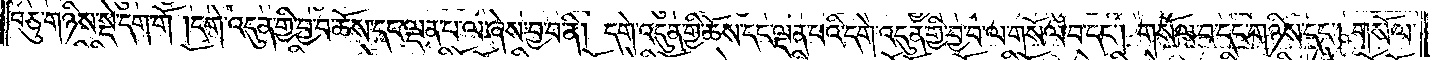བཅུ་གཉིས་སྡེ་དག་གོ །དགེ་འདུན་གྱི་བྱ་བ་ཆོས་དང་ལྡན་པ་ལ་ཞེས་བྱ་བ་ནི། དགེ་འདུན་གྱི་ཆོས་དང་ལྡན་པའི་དགེ་འདུན་གྱི་བྱ་བ་ལ་གསོལ་བ་དང༌། གསོལ་བ་དང་གཉིས་དང༌། གསོལ་
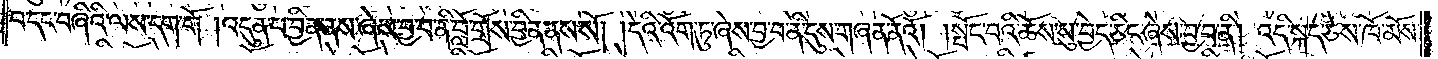བ་དང་བཞིའི་ལས་དག་གོ །འདུན་པ་བྱིན་ནས་ཞེས་བྱ་བ་ནི་བློ་གྲོས་བྱིན་ནས་སོ། །དེའི་འོག་ཏུ་ཞེས་བྱ་བ་ནི་དུས་གཞན་ནོའོ། །སྤོང་བའི་ཆོས་སུ་བྱེད་ཅིང་ཞེས་བྱ་བ་ནི། འདི་སྐད་ཅེས་ཁོ་མོས་
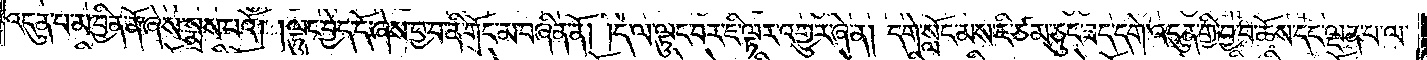འདུན་པ་མ་བྱིན་ནོ་ཞེས་སྨྲས་པའོ། །ལྟུང་བྱེད་དོ་ཞེས་བྱ་བ་ནི་གོང་མ་བཞིན་ནོ། །དེ་ལ་ལྟུང་བར་ཇི་ལྟར་འགྱུར་ཞེ་ན། དགེ་སློང་མས་ཇི་ཙམ་ཅུང་ཟད་དགེ་འདུན་གྱི་བྱ་བ་ཆོས་དང་ལྡན་པ་ལ་
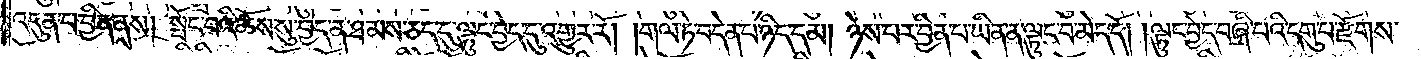འདུན་པ་བྱིན་ནས། སྤོང་བའི་ཆོས་སུ་བྱེད་ན་ཐམས་ཅད་དུ་ལྟུང་བྱེད་དུ་འགྱུར་རོ། །གལ་ཏེ་བདེན་པ་ཉིད་དམ། ཉེས་པར་བྱིན་པ་ཡིན་ན་ལྟུང་བ་མེད་དོ། །ལྟུང་བྱེད་བཞི་པའི་དགུ་པ་རྫོགས་
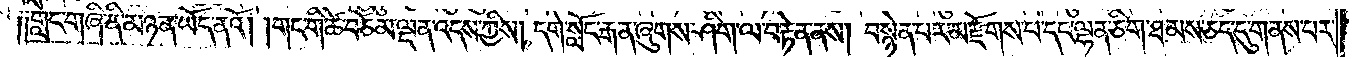༑༑གླེང་གཞི་ནི་མཉན་ཡོད་ནའོ། །གང་གི་ཚེ་བཅོམ་ལྡན་འདས་ཀྱིས། དགེ་སློང་རྒན་ཞུགས་ཤིག་ལ་བརྟེན་ནས། བསྙེན་པར་མ་རྫོགས་པ་དང་ལྷན་ཅིག་ཐམས་ཅད་དུ་གནས་པར་
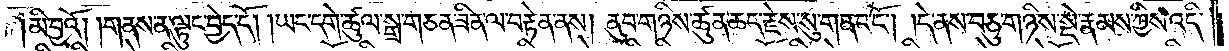མི་བྱའོ། །གནས་ན་ལྟུང་བྱེད་དོ། །ཡང་དགེ་ཚུལ་སྒྲ་གཅན་ཟིན་ལ་བརྟེན་ནས། ནུབ་གཉིས་ཚུན་ཆད་རྗེས་སུ་གནང་ངོ༌། །དེ་ནས་བཅུ་གཉིས་སྡེ་རྣམས་ཀྱིས་འདི་
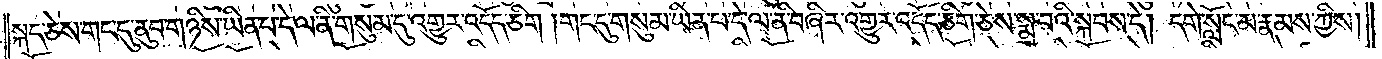སྐད་ཅེས་གང་དུ་ནུབ་གཉིས་ཡིན་པ་དེ་ལ་ནི་གསུམ་དུ་འགྱུར་འདོད་ཅིག །གང་དུ་གསུམ་ཡིན་པ་དེ་ལ་ནི་བཞིར་འགྱུར་འདོད་ཅིག་ཅེས་སྨྲ་བའི་སྐབས་དེ། དགེ་སློང་མ་རྣམས་ཀྱིས།
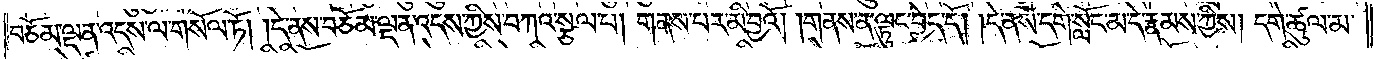བཅོམ་ལྡན་འདས་ལ་གསོལ་ཏོ། །དེ་ནས་བཅོམ་ལྡན་འདས་ཀྱིས་བཀའ་སྩལ་པ། གནས་པར་མི་བྱའོ། །གནས་ན་ལྟུང་བྱེད་དོ། །དེ་ནས་དགེ་སློང་མ་དེ་རྣམས་ཀྱིས། དགེ་ཚུལ་མ་
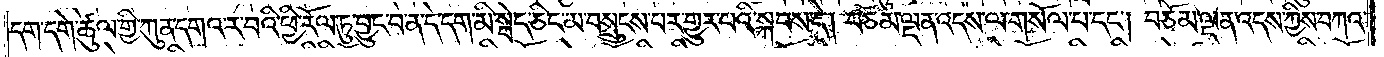དག་དགེ་ཚུལ་གྱི་ཀུན་དགའ་ར་བའི་ཕྱི་རོལ་ཏུ་བྱུང་བ་ན་དེ་དག་མི་སྦེད་ཅིང་མ་བསྲུངས་པར་གྱུར་པའི་སྐབས་དེ། བཅོམ་ལྡན་འདས་ལ་གསོལ་པ་དང༌། བཅོམ་ལྡན་འདས་ཀྱིས་བཀའ་
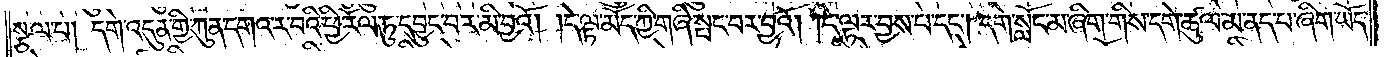སྩལ་པ། དགེ་འདུན་གྱི་ཀུན་དགའ་ར་བའི་ཕྱི་རོལ་ཏུ་དབྱུང་བར་མི་བྱའོ། །དེ་ལྟ་མོད་ཀྱི་གཞི་སྤང་བར་བྱའོ། །དེ་ལྟར་བྱས་པ་དང༌། དགེ་སློང་མ་ཞིག་གིས་དགེ་ཚུལ་མ་ནད་པ་ཞིག་ཡོད་
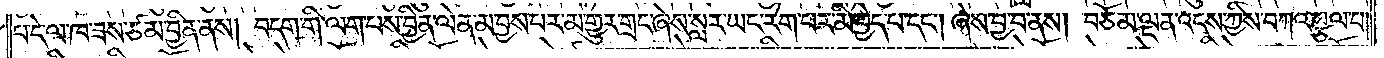པ་དེ་ལ་ཁ་ཟས་ཙམ་བྱིན་ནས། བདག་གི་ལག་པས་བྱིན་ལེན་མ་བྱས་པར་མ་གྱུར་གྲང་ཞེས་སླར་ཡང་རེག་པར་མི་བྱེད་པ་དང༌། ཞེས་བྱ་བ་ནས། བཅོམ་ལྡན་འདས་ཀྱིས་བཀའ་སྩལ་པ།
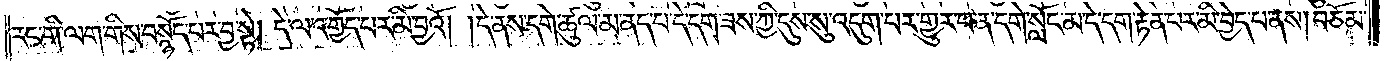རང་གི་ལག་གིས་བསྙོད་པར་བྱ་སྟེ། དེ་ལ་འགྱོད་པར་མི་བྱའོ། །དེ་ནས་དགེ་ཚུལ་མ་ནད་པ་དེ་དག་ཟས་ཀྱི་དུས་སུ་འདུག་པར་གྱུར་པ་ན་དགེ་སློང་མ་དེ་དག་རྟེན་པར་མི་བྱེད་པ་ནས། བཅོམ་
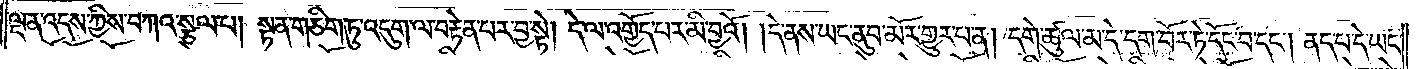ལྡན་འདས་ཀྱིས་བཀའ་སྩལ་པ། སྟན་གཅིག་ཏུ་འདུག་ལ་བརྟེན་པར་བྱ་སྟེ། དེ་ལ་འགྱོད་པར་མི་བྱའོ། །དེ་ནས་ཡང་ནུབ་མོར་གྱུར་པ་ན། དགེ་ཚུལ་མ་དེ་དག་བོར་ཏེ་དོང་བ་དང༌། ནད་པ་དེ་ཡང་
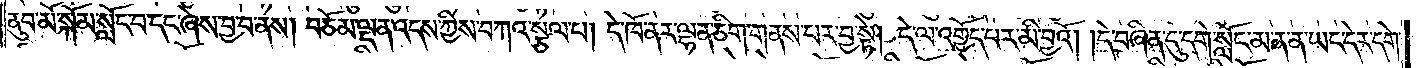ནུབ་མོ་སྐོམ་སློང་བ་དང་ཞེས་བྱ་བ་ནས། བཅོམ་ལྡན་འདས་ཀྱིས་བཀའ་སྩལ་པ། དེ་ཁོ་ནར་ལྷན་ཅིག་གནས་པར་བྱ་སྟེ། དེ་ལ་འགྱོད་པར་མི་བྱའོ། །དེ་བཞིན་དུ་དགེ་སློང་མ་ན་ན་ཡང་དེར་དགེ་
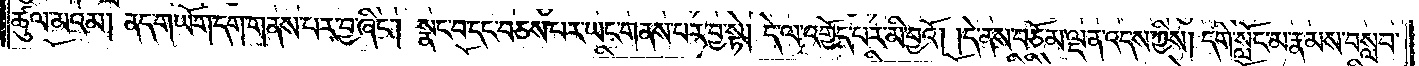ཚུལ་མའམ། ནད་གཡོག་དག་གནས་པར་བྱ་ཞིང༌། སྣང་བ་དང་བཅས་པར་ཡང་གནས་པར་བྱ་སྟེ། དེ་ལ་འགྱོད་པར་མི་བྱའོ། །དེ་ནས་བཅོམ་ལྡན་འདས་ཀྱིས། དགེ་སློང་མ་རྣམས་བསླབ་
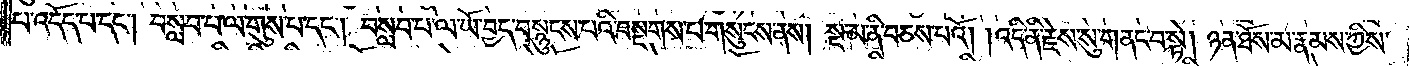པ་འདོད་པ་དང༌། བསླབ་པ་ལ་གུས་པ་དང༌། བསླབ་པ་ལ་ཡོ་བྱད་བསྙུངས་པའི་བསྔགས་པ་གསུངས་ནས། སྔ་མ་ནི་བཅས་པའོ། །འདི་ནི་རྗེས་སུ་གནང་བ་སྟེ། ཉན་ཐོས་མ་རྣམས་ཀྱིས་
